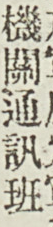機關通訊社
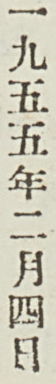一九五五年二月四日
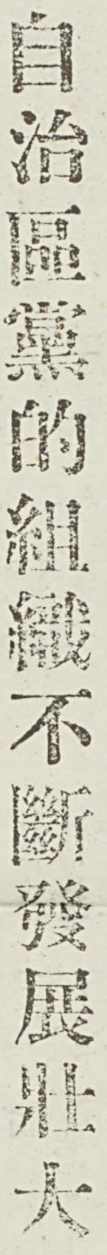自治區黨的組織不斷發展壯大
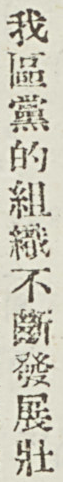我區黨的組織不斷發展壯
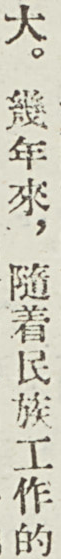大。幾年來，隨着民族工作的
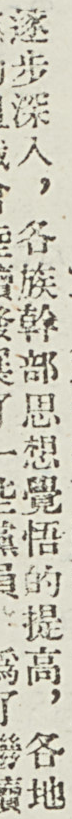逐步深入，各族幹部思想覺悟的提高，各地
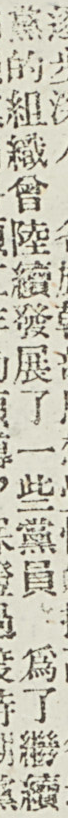黨的組織曾陸續發展了一些黨員。爲了繼續
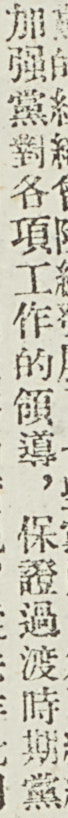加強黨對各項工作的領導，保證過渡時期黨
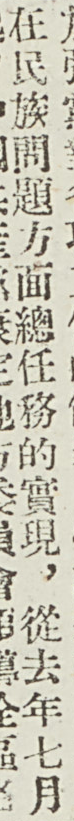在民族問題方面總任務的實現，從去年七月
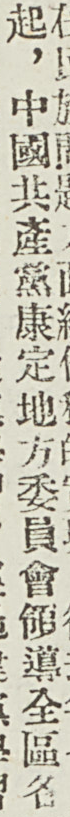起，中國共產黨康定地方委員會領導全區各
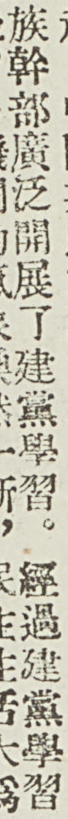族幹部廣泛開展了建黨學習。經過建黨學習
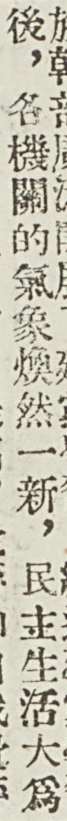後，各機關的氣象煥然一新，民主生活大爲
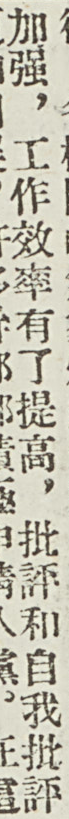加強，工作效率有了提高，批評和自我批評
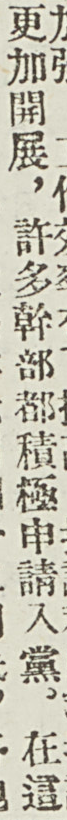更加開展，許多幹部都積極申請入黨。在這
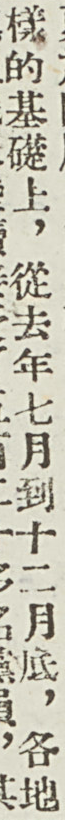樣的基礎上，從去年七月到十二月底，各地
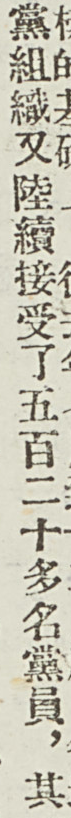黨組織又陸續接受了五百二十多名黨員，其
